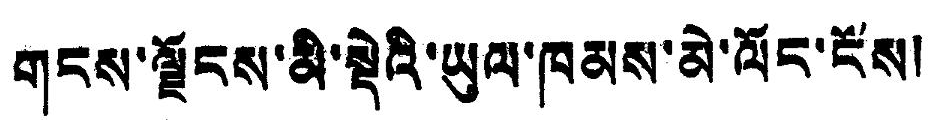གངས་ལྗོངས་མི་སྡེའི་ཡུལ་ཁམས་མེ་ལོང་ངོས།
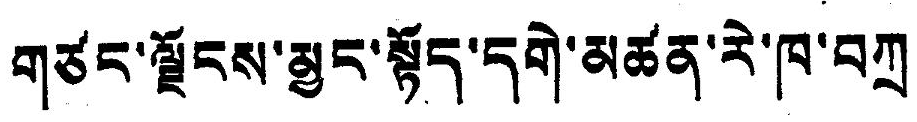གཙང་ལྗོངས་མྱང་སྟོད་དགེ་མཚན་རེ་ཁ་བཀྲ
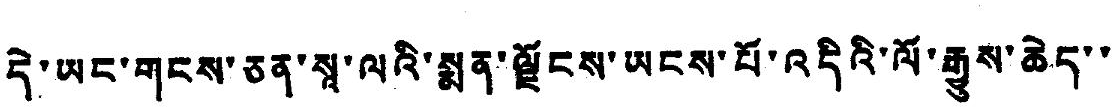དེ་ཡང་གངས་ཅན་སའ་ལའི་སྨན་ལྗོངས་ཡངས་པོ་འདིའི་ལོ་རྒྱུས་ཆེད་་
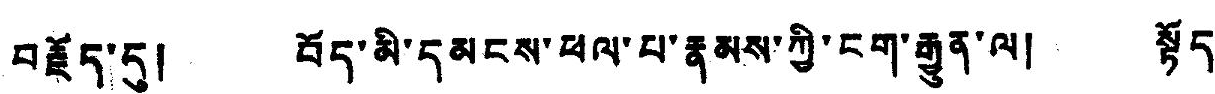བརྗོད་དུ། བོད་མི་དམངས་ཕལ་པ་རྣམས་ཀྱི་ངག་རྒྱུན་ལ། སྟོད་
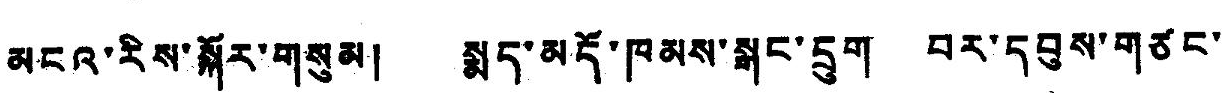མངའ་རིས་སྐོར་གསུམ། སྨད་མདོ་ཁམས་སྒང་དྲུག བར་དབུས་གཙང་
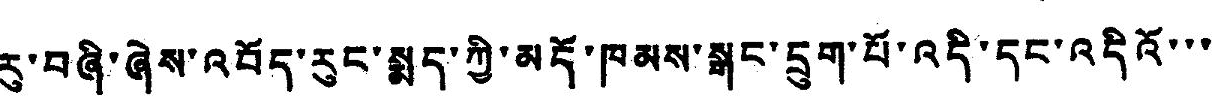རུ་བཞི་ཞེས་འབོད་རུང་སྨད་ཀྱི་མདོ་ཁམས་སྒང་དྲུག་པོ་འདི་ད་འདིའོ་་་
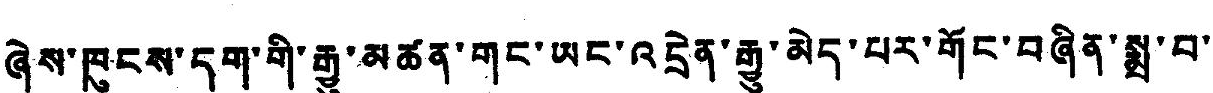ཞེས་ཁུངས་དག་གི་རྒྱུ་མཚན་གང་ཡང་འདྲེན་རྒྱུ་མེད་པར་གོང་བཞིན་སྨྲ་བ་
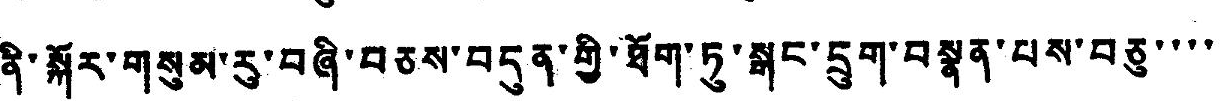ནི་སྐོར་གསུམ་རུ་བཞི་བཅས་བདུན་གྱི་ཐོག་ཏུ་སྒང་དྲུག་བསྣན་པས་བཅུ་་་་
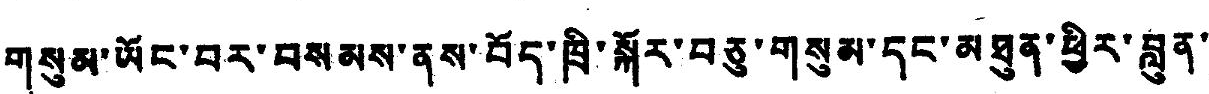གསུམ་ཡོང་བར་བསམས་ནས་བོད་ཁྲི་སྐོར་བཅུ་གསུམ་དང་མཐུན་ཕྱིར་བླུན་
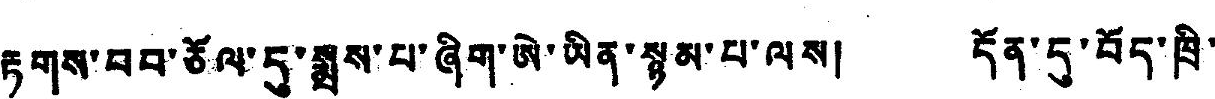རྟགས་བབ་ཅོལ་དུ་སྨྲས་པ་ཞིག་ཨེ་ཡིན་སྙམ་པ་ལས། དོན་དུ་བོད་ཁྲི་
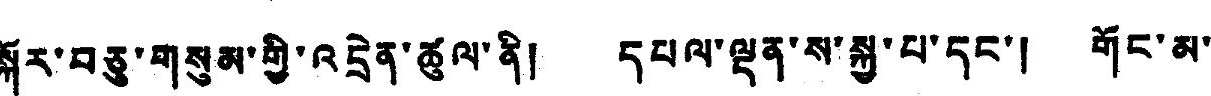སྐོར་བཅུ་གསུམ་གྱི་འདྲེན་ཚུལ་ནི། དཔལ་ལྡན་ས་སྐྱ་པ་དང་། གོང་མ་
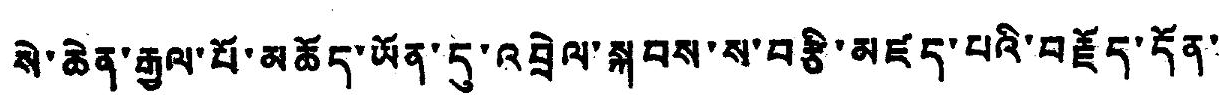སེ་ཆེན་རྒྱལ་པོ་མཆོད་ཡོན་དུ་འབྲེལ་སྐབས་ས་བརྩི་མཛད་པའི་བརྗོད་དོན་
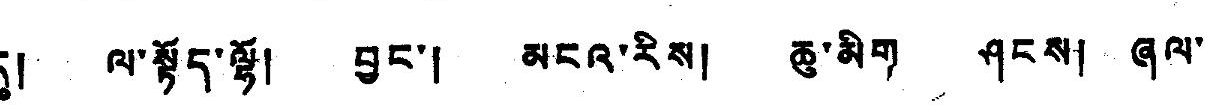དུ། ལ་སྟོད་ལྷོ། བྱང་། མངའ་རིས། ཆུ་མིག ཤངས། ཞལ་
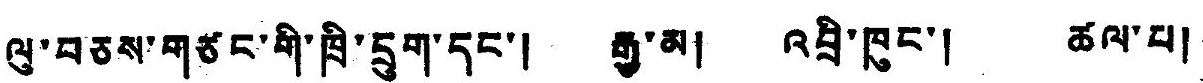ལུ་བཅས་གཙང་གི་ཁྲི་དྲུག་དང་། རྒྱ་མ། འབྲི་ཁུང་། ཚལ་པ།
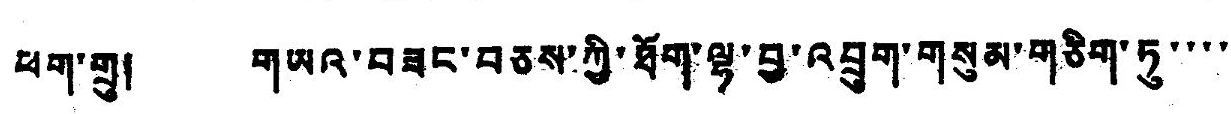ཕག་གྲུ། གཡའ་བཟང་བཅས་ཀྱི་ཐོག་ལྷ་བྱ་འབྲུག་གསུམ་གཅིག་ཏུ་་་
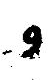9
